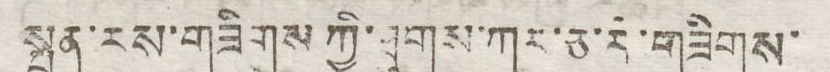སྤྱན་རས་གཟིགས་ཀྱི་ཐུགས་ཀར་ཅ་རེ་གཟིགས་
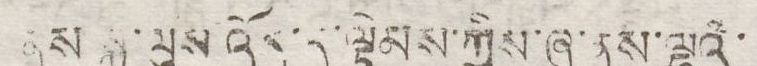ནས་སྐུ་ལུས་འོད་དུ་ལྟེམས་ཀྱིས་ཞུ་ནས་ལྷའི་
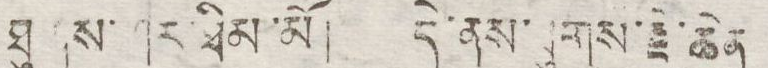ཐུགས་ཤར་ཐིམ་མོ། དེ་ནས་ཐུགས་རྗེ་ཆེན
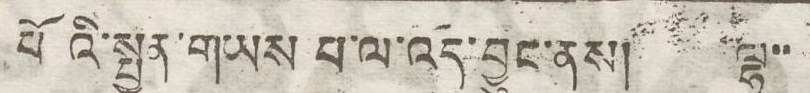པོའི་སྤྱན་གཡས པ་ལ་འདི་བྱུང་ནས། ལྷ་་
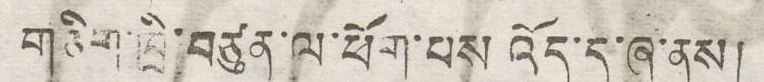གཅིག་ཁྲི་བཙུན་ལ་ཕོག་པས་འོད་དུ་ཞུ་ནས།
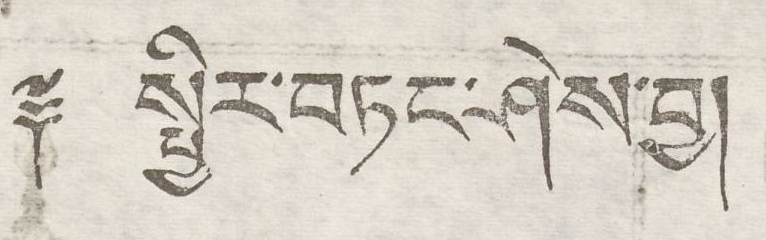༈ སྤྱིར་བཏང་ཤེས་བྱ།
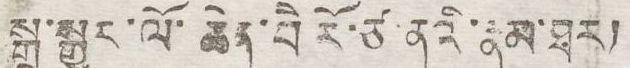སྒྲ་སྒྱུར་ལོ་ཆེན་བཻ་རོ་ཙ་ནའི་རྣམ་ཐར།
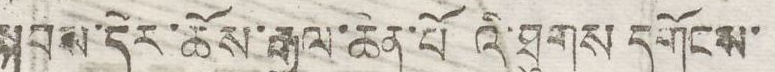སྐབས་དེར་ཆོས་རྒྱལ་ཆེན་པོའི་ཐུགས དགོངས་
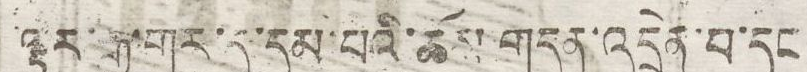ལྟར་རྒྱ་གར་དུ་དམ་པའི་ཆོས་གདན་འདྲེན་པ་དང
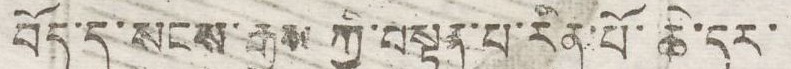བོད་དུ་སངས་རྒྱས་ཀྱི་བསྟན་པ་རིན་པོ་ཆེ་དར་
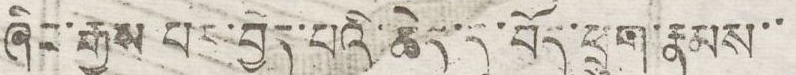ཞིང་རྒྱས་པར་བྱེད་པའི་ཆེད་དུ་བོད་ཕྲུག་རྣམས་་
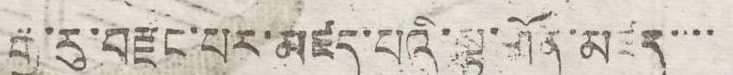རྒྱ་རུ་བརྫང་པར་མཛད་པའི་སྟ་གོན་མཛད་་་་
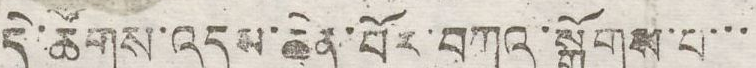དེ་ཚོགས་འདུས་ཆེན་པོར་བཀའ་སྒྲོགས་པ་་་
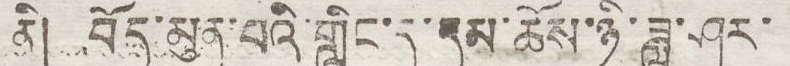ནི། བོད་མུན་པའི་གླིང་དུ་དམ་ཆོས་ཉི་ཟླ་ཤར་
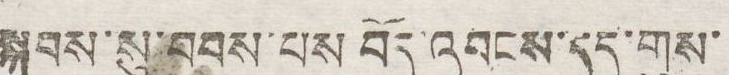སྐབས་སུ་བབས་པས་བོད་འབངས་དད་གུས་
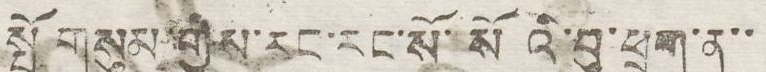སྤྲོ་གསུམ་གྱིས་རང་རང་སོ་སོའི་བུ་ཕྲུག་ན་་་
